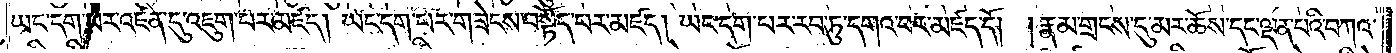ཡང་དག་པར་འཛིན་དུ་འཇུག་པར་མཛད། ཡང་དག་པར་གཟེངས་བསྟོད་པར་མཛད། ཡང་དག་པར་རབ་ཏུ་དགའ་བར་མཛད་དོ། །རྣམ་གྲངས་དུ་མར་ཆོས་དང་ལྡན་པའི་བཀའ་
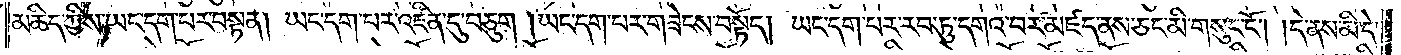མཆིད་ཀྱིས་ཡང་དག་པར་བསྟན། ཡང་དག་པར་འཛིན་དུ་བཅུག །ཡང་དག་པར་གཟེངས་བསྟོད། ཡང་དག་པར་རབ་ཏུ་དགའ་བར་མཛད་ནས་ཅང་མི་གསུང་ངོ༌། །དེ་ནས་མི་དེ་
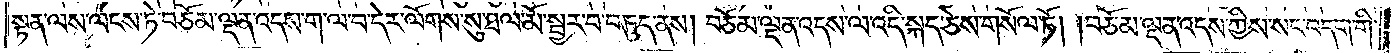སྟན་ལས་ལངས་ཏེ་བཅོམ་ལྡན་འདས་ག་ལ་བ་དེར་ལོགས་སུ་ཐལ་མོ་སྦྱར་བ་བཏུད་ནས། བཅོམ་ལྡན་འདས་ལ་འདི་སྐད་ཅེས་གསོལ་ཏོ། །བཅོམ་ལྡན་འདས་ཀྱིས་སང་བདག་གི་
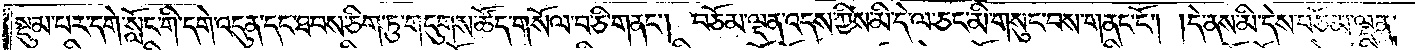སྡུམ་པར་དགེ་སློང་གི་དགེ་འདུན་དང་ཐབས་ཅིག་ཏུ་གདུགས་ཚོད་གསོལ་བ་ཅི་གནང༌། བཅོམ་ལྡན་འདས་ཀྱིས་མི་དེ་ལ་ཅང་མི་གསུང་བས་གནང་ངོ༌། །དེ་ནས་མི་དེས་བཅོམ་ལྡན་
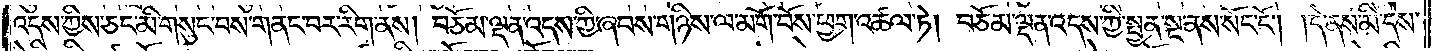འདས་ཀྱིས་ཅང་མི་གསུང་བས་གནང་བར་རིག་ནས། བཅོམ་ལྡན་འདས་ཀྱི་ཞབས་གཉིས་ལ་མགོ་བོས་ཕྱག་འཚལ་ཏེ། བཅོམ་ལྡན་འདས་ཀྱི་སྤྱན་སྔ་ནས་སོང་ངོ༌། །དེ་ནས་མི་དེས་
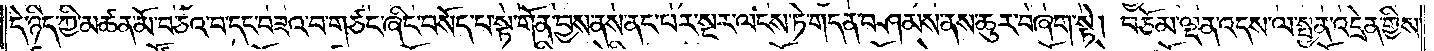དེ་ཉིད་ཀྱི་མཚན་མོ་བཅའ་བ་དང་བཟའ་བ་གཙང་ཞིང་བསོད་པ་སྟ་གོན་བྱས་ནས་ནང་པར་སྔར་ལངས་ཏེ་གདན་བཤམས་ནས་ཆུར་བཞག་སྟེ། བཅོམ་ལྡན་འདས་ལ་སྤྱན་འདྲེན་གྱིས་
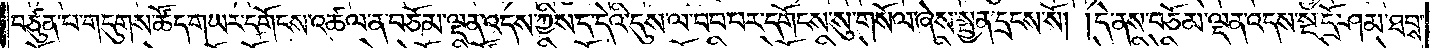བཙུན་པ་གདུགས་ཚོད་གཡར་དགོངས་འཚལ་ན་བཅོམ་ལྡན་འདས་ཀྱིས་ད་དེའི་དུས་ལ་བབ་པར་དགོངས་སུ་གསོལ་ཞེས་སྤྱན་དྲངས་སོ། །དེ་ནས་བཅོམ་ལྡན་འདས་སྔ་དྲོ་ཤམ་ཐབས་
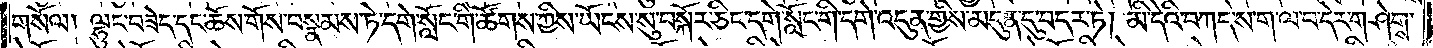གསོལ། ལྷུང་བཟེད་དང་ཆོས་གོས་བསྣམས་ཏེ་དགེ་སློང་གི་ཚོགས་ཀྱིས་ཡོངས་སུ་བསྐོར་ཅིང་དགེ་སློང་གི་དགེ་འདུན་གྱིས་མདུན་དུ་བདར་ཏེ། མི་དེའི་བཀད་ས་ག་ལ་བ་དེར་གཤེགས་
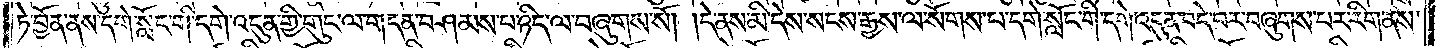ཏེ་བྱོན་ནས་དགེ་སློང་གི་དགེ་འདུན་གྱི་གུང་ལ་གདན་བཤམས་པ་ཉིད་ལ་བཞུགས་སོ། །དེ་ནས་མི་དེས་སངས་རྒྱས་ལ་སོགས་པ་དགེ་སློང་གི་དགེ་འདུན་བདེ་བར་བཞུགས་པར་རིག་ནས་
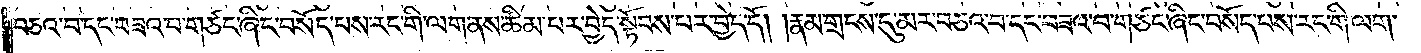བཅའ་བ་དང་བཟའ་བ་གཙང་ཞིང་བསོད་པས་རང་གི་ལག་ནས་ཚིམ་པར་བྱེད་སྟོབས་པར་བྱེད་དོ། །རྣམ་གྲངས་དུ་མར་བཅའ་བ་དང་བཟའ་བ་གཙང་ཞིང་བསོད་པས་རང་གི་ལག་
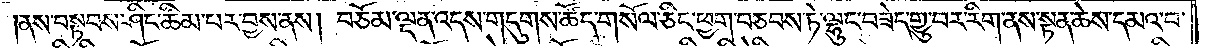ནས་བསྟབས་ཤིང་ཚིམ་པར་བྱས་ནས། བཅོམ་ལྡན་འདས་གདུགས་ཚོད་གསོལ་ཅིང་ཕྱག་བཅབས་ཏེ་ལྷུང་བཟེད་གྱུ་བར་རིག་ནས་སྟན་ཆེས་དམའ་བ་
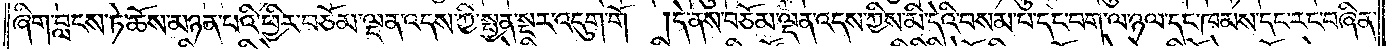ཞིག་བླངས་ཏེ་ཆོས་མཉན་པའི་ཕྱིར་བཅོམ་ལྡན་འདས་ཀྱི་སྤྱན་སྔར་འདུག་གོ །དེ་ནས་བཅོམ་ལྡན་འདས་ཀྱིས་མི་དེའི་བསམ་པ་དང་བག་ལ་ཉལ་དང་ཁམས་དང་རང་བཞིན་
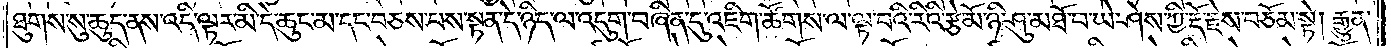ཐུགས་སུ་ཆུད་ནས་འདི་ལྟར་མི་དེ་ཆུང་མ་དང་བཅས་པས་སྟན་དེ་ཉིད་ལ་འདུག་བཞིན་དུ་འཇིག་ཚོགས་ལ་ལྟ་བའི་རིའི་རྩེ་མོ་ཉི་ཤུ་མཐོ་བ་ཡེ་ཤེས་ཀྱི་རྡོ་རྗེས་བཅོམ་སྟེ། རྒྱུན་
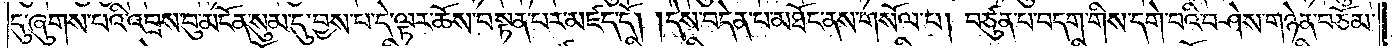དུ་ཞུགས་པའི་འབྲས་བུ་མངོན་སུམ་དུ་བྱས་པ་དེ་ལྟར་ཆོས་བསྟན་པར་མཛད་དོ། །དེས་བདེན་པ་མཐོང་ནས་གསོལ་པ། བཙུན་པ་བདག་གིས་དགེ་བའི་བཤེས་གཉེན་བཅོམ་
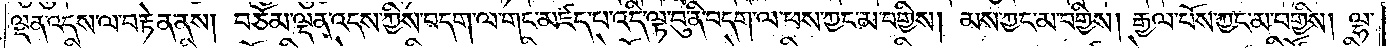ལྡན་འདས་ལ་བརྟེན་ནས། བཅོམ་ལྡན་འདས་ཀྱིས་བདག་ལ་གང་མཛད་པ་འདི་ལྟ་བུ་ནི་བདག་ལ་ཕས་ཀྱང་མ་བགྱིས། མས་ཀྱང་མ་བགྱིས། རྒྱལ་པོས་ཀྱང་མ་བགྱིས། ལྷ་
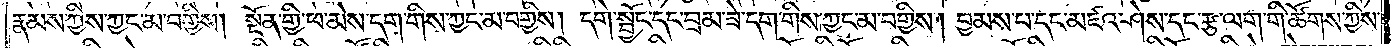རྣམས་ཀྱིས་ཀྱང་མ་བགྱིས། སྔོན་གྱི་ཕ་མེས་དག་གིས་ཀྱང་མ་བགྱིས། དགེ་སྦྱོང་དང་བྲམ་ཟེ་དག་གིས་ཀྱང་མ་བགྱིས། བྱམས་པ་དང་མཛའ་ཤེས་དང་རྩ་ལག་གི་ཚོགས་ཀྱིས་
